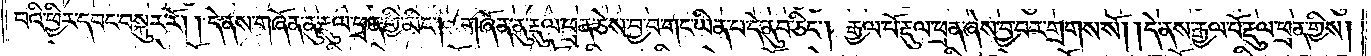བའི་ཕྱིར་དབང་བསྐུར་རོ། །དེ་ནས་གཞོན་ནུ་རྡུལ་ཕྲན་གྱི་མིང༌། གཞོན་ནུ་རྡུལ་ཕྲན་ཅེས་བྱ་བ་གང་ཡིན་པ་དེ་ནུབ་ཅིང༌། རྒྱལ་པོ་རྡུལ་ཕྲན་ཞེས་བྱ་བར་གྲགས་སོ། །དེ་ནས་རྒྱལ་པོ་རྡུལ་ཕྲན་གྱིས།
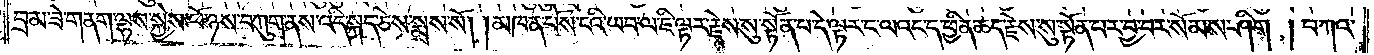བྲམ་ཟེ་གནག་ལྷས་སྐྱེས་ཕོ་ཉས་བཀུག་ནས་འདི་སྐད་ཅེས་སྨྲས་སོ། །མཁན་པོས་ངའི་ཡབ་ལ་ཇི་ལྟར་རྗེས་སུ་སྟོན་པ་དེ་ལྟར་ང་ལའང་ད་ཕྱིན་ཆད་རྗེས་སུ་སྟོན་པར་བྱ་བར་སོམས་ཤིག །བཀའ་
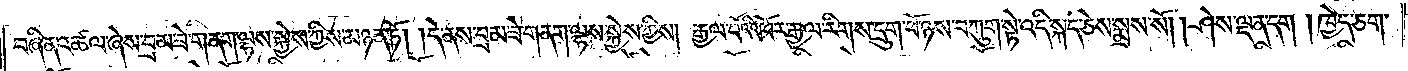བཞིན་འཚལ་ཞེས་བྲམ་ཟེ་གནག་ལྷས་སྐྱེས་ཀྱིས་མཉན་ཏོ། །དེ་ནས་བྲམ་ཟེ་གནག་ལྷས་སྐྱེས་ཀྱིས། རྒྱལ་པོའི་འཁོར་རྒྱལ་རིགས་དྲུག་ཕོ་ཉས་བཀུག་སྟེ་འདི་སྐད་ཅེས་སྨྲས་སོ། །ཤེས་ལྡན་དག །ཁྱེད་ཅག་
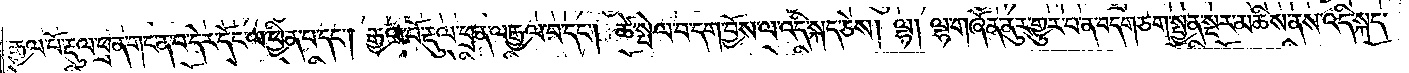རྒྱལ་པོ་རྡུལ་ཕྲན་གང་ན་བ་དེར་དོང་ལ་ཕྱིན་པ་དང༌། རྒྱལ་པོ་རྡུལ་ཕྲན་ལ་རྒྱལ་བ་དང༌། ཚེ་སྤེལ་བ་དག་བྱོས་ལ་འདི་སྐད་ཅེས། ལྷ། ལྷ་གཞོན་ནུར་གྱུར་པ་ན་བདག་ཅག་སྤྱན་སྔར་མཆིས་ནས་འདི་སྐད་
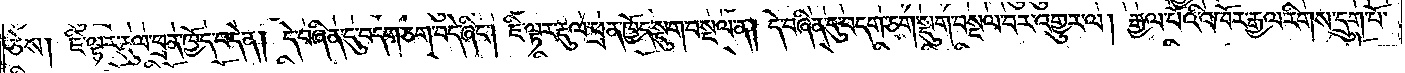ཅེས། ཇི་ལྟར་རྡུལ་ཕྲན་ཁྱོད་བདེ་ན། དེ་བཞིན་དུ་བདག་ཅག་བདེ་ཞིང༌། ཇི་ལྟར་རྡུལ་ཕྲན་ཁྱོད་སྡུག་བསྔལ་ན། དེ་བཞིན་དུ་བདག་ཅག་སྡུག་བསྔལ་བར་འགྱུར་ལ། རྒྱལ་པོའི་འཁོར་རྒྱལ་རིགས་དྲུག་པོ་
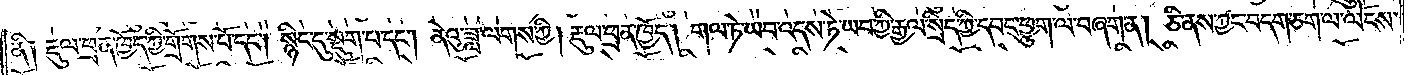ནི༑ རྡུལ་ཕྲན་ཁྱོད་ཀྱི་གྲོགས་པོ་དང༌། སྙིང་དུ་སྡུག་པ་དང༌། ནེའུ་ཟླ་ལགས་ཀྱི། རྡུལ་ཕྲན་ཁྱོད། གལ་ཏེ་ཡབ་འདས་ཏེ་ཡབ་ཀྱི་རྒྱལ་སྲིད་ཀྱི་དབང་ཕྱུག་ལ་བཞག་ན། ཅི་ནས་ཀྱང་བདག་ཅག་ལ་ལོངས་
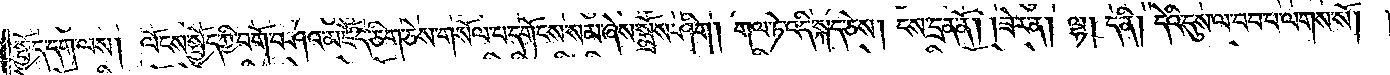སྤྱོད་དག་ལས། ལོངས་སྤྱོད་ཀྱི་བགོ་བཤའ་མཛོད་ཅིག་ཅེས་གསོལ་པ་དགོངས་སམ་ཞེས་སྨྲོས་ཤིག། གལ་ཏེ་འདི་སྐད་ཅེས། ངས་དྲན་ནོ། །ཟེར་ན། ལྷ། ད་ནི། དེའི་དུས་ལ་བབ་པ་ལགས་སོ། །
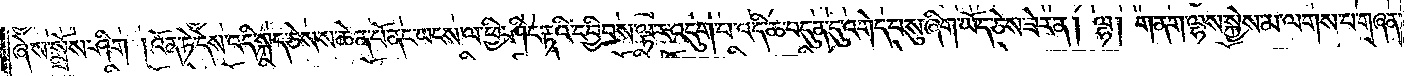ཞེས་སྨྲོས་ཤིག །འོན་ཏེ་དེས་འདི་སྐད་ཅེས་ཆེན་པོ་ནང་ཡངས་ལ་ཕྱི་ཤིང་རྟའི་དབྱིབས་ལྟར་འདུག་པ་འདི་ཆ་བདུན་དུ་འགེད་པ་སུ་ཞིག་ཡོད་ཅེས་ཟེར་ན། ལྷ། གནག་ལྷས་སྐྱེས་མ་ལགས་པ་གཞན་
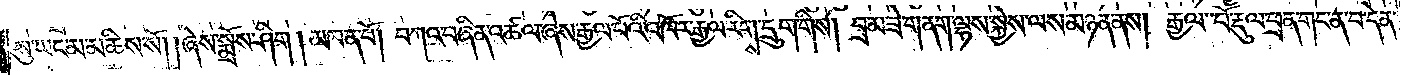སུ་ཡང་མ་མཆིས་སོ། །ཞེས་སྨྲོས་ཤིག། མཁན་པོ། བཀའ་བཞིན་འཚལ་ཞེས་རྒྱལ་པོའི་འཁོར་རྒྱལ་རིགས་དྲུག་གིས། བྲམ་ཟེ་གནག་ལྷས་སྐྱེས་ལས་མཉན་ནས། རྒྱལ་པོ་རྡུལ་ཕྲན་གང་ན་བ་དེ་ན་
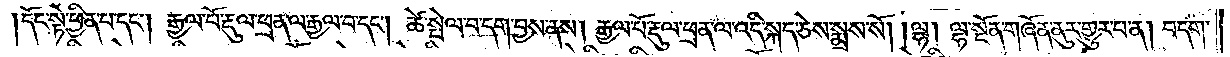དོང་སྟེ་ཕྱིན་པ་དང༌། རྒྱལ་པོ་རྡུལ་ཕྲན་ལ་རྒྱལ་བ་དང༌། ཚེ་སྤེལ་བ་དག་བྱས་ནས། རྒྱལ་པོ་རྡུལ་ཕྲན་ལ་འདི་སྐད་ཅེས་སྨྲས་སོ། །ལྷ། ལྷ་སྔོན་གཞོན་ནུར་གྱུར་པ་ན། བདག་
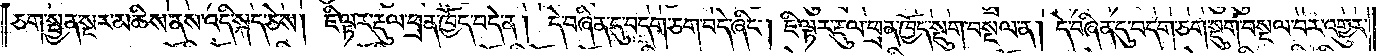ཅག་སྤྱན་སྔར་མཆིས་ནས་འདི་སྐད་ཅེས། ཇི་ལྟར་རྡུལ་ཕྲན་ཁྱོད་བདེ་ན། །དེ་བཞིན་དུ་བདག་ཅག་བདེ་ཞིང༌། ཇི་ལྟར་རྡུལ་ཕྲན་ཁྱོད་སྡུག་བསྔལ་ན། དེ་བཞིན་དུ་བདག་ཅག་སྡུག་བསྔལ་བར་འགྱུར་
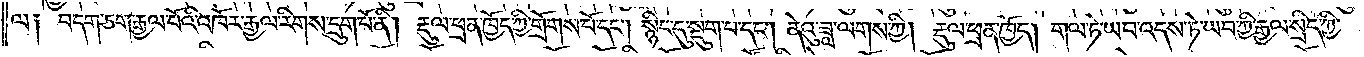ལ༑ བདག་ཅག་རྒྱལ་པོའི་འཁོར་རྒྱལ་རིགས་དྲུག་པོ་ནི། རྡུལ་ཕྲན་ཁྱོད་ཀྱི་གྲོགས་པོ་དང༌། སྙིང་དུ་སྡུག་པ་དང༌། ནེའུ་ཟླ་ལགས་ཀྱི། རྡུལ་ཕྲན་ཁྱོད། གལ་ཏེ་ཡབ་འདས་ཏེ་ཡབ་ཀྱི་རྒྱལ་སྲིད་ཀྱི་
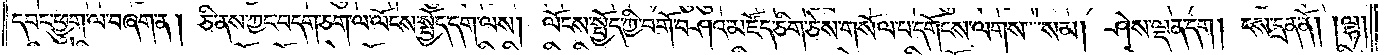དབང་ཕྱུག་ལ་བཞག་ན། ཅི་ནས་ཀྱང་བདག་ཅག་ལ་ལོངས་སྤྱོད་དག་ལས། ལོངས་སྤྱོད་ཀྱི་བགོ་བཤའ་མཛོད་ཅིག་ཅེས་གསོལ་པ་དགོངས་ལགས་སམ། ཤེས་ལྡན་དག། ངས་དྲན་ནོ། །ལྷ།
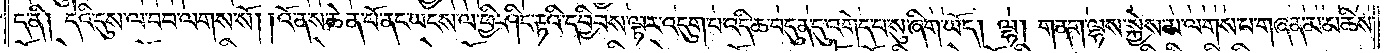ད་ནི། དེའི་དུས་ལ་བབ་ལགས་སོ། །འོ་ན་ས་ཆེན་པོ་ནང་ཡངས་ལ་ཕྱི་ཤིང་རྟའི་དབྱིབས་ལྟར་འདུག་པ་འདི་ཆ་བདུན་དུ་འགེད་པ་སུ་ཞིག་ཡོད། ལྷ། གནག་ལྷས་སྐྱེས་མ་ལགས་པ་གཞན་མ་མཆིས་
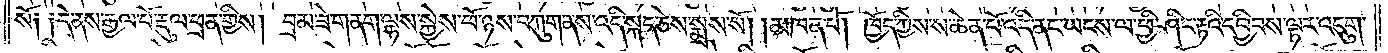སོ༑ ༑དེ་ནས་རྒྱལ་པོ་རྡུལ་ཕྲན་གྱིས། བྲམ་ཟེ་གནག་ལྷས་སྐྱེས་ཕོ་ཉས་བཀུག་ནས་འདི་སྐད་ཅེས་སྨྲས་སོ། །མཁན་པོ། ཁྱོད་ཀྱིས་ས་ཆེན་པོ་འདི་ནང་ཡངས་ལ་ཕྱི་ཤིང་རྟའི་དབྱིབས་ལྟར་འདུག་
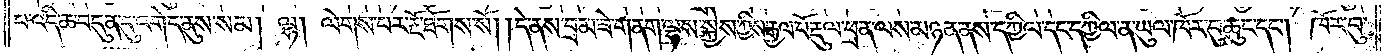པ་འདི་ཆ་བདུན་དུ་འགེད་ནུས་སམ། ལྷ། ལེགས་པར་རྔོ་ཐོགས་སོ། །དེ་ནས་བྲམ་ཟེ་གནག་ལྷས་སྐྱེས་ཀྱིས་རྒྱལ་པོ་རྡུལ་ཕྲན་ལས་མཉན་ནས་དཀྱིལ་དང་དཀྱིལ་ན་ཡུལ་ཁོར་བུ་ཆུང་དང༌། ཁོར་བུ་
